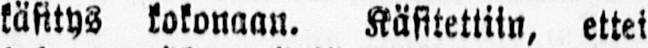käsitys kokonaan. Käsitettiin, ettei
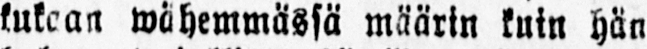kukaan wähemmässä määrin kuin hän
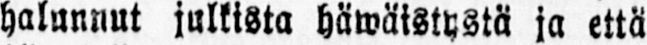halunnut julkista häwäistystä ja että
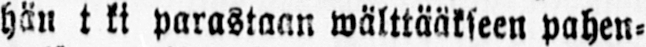hän t ki parastaan wälttääkseen pahen-
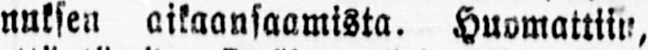nuksen aikaansaamista. Huomattiin,
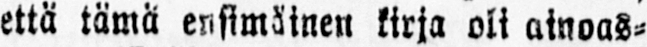että tämä ensimäinen kirja oli ainoas-
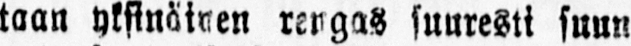taan yksinäinen rengas suuresti suun
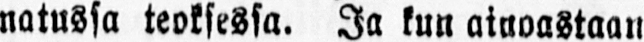natussa teoksessa. Ja kun ainoastaan
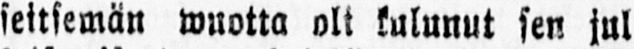seitsemän wuotta oli kulunut sen jul
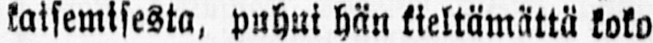kaisemisesta, puhui hän kieltämättä koko
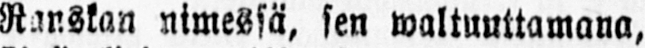Ranskan nimessä, sen waltuuttamana,
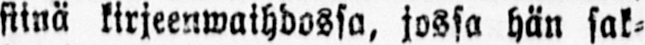siinä kirjeenwaihdossa, jossa hän sak-
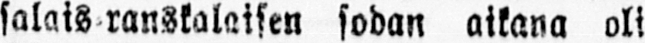salais-ranskalaisen sodan aikana oli
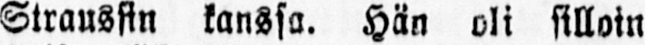Straussin kanssa. Hän oli silloin
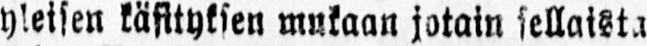yleisen käsityksen mukaan jotain sellaista
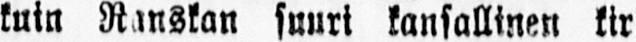kuin Ranskan suuri kansallinen kir-
